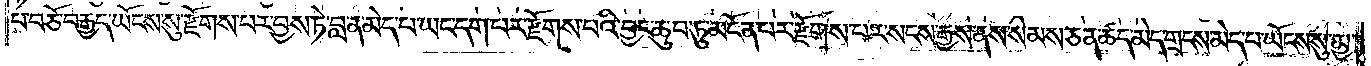པ་བཅོ་བརྒྱད་ཡོངས་སུ་རྫོགས་པར་བྱས་ཏེ་བླ་ན་མེད་པ་ཡང་དག་པར་རྫོགས་པའི་བྱང་ཆུབ་ཏུ་མངོན་པར་རྫོགས་པར་སངས་རྒྱས་ནས་སེམས་ཅན་ཚད་མེད་གྲངས་མེད་པ་ཡོངས་སུ་མྱ་
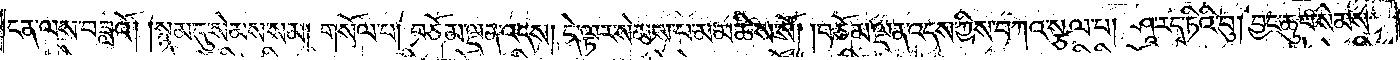ངན་ལས་བཟླའོ། །སྙམ་དུ་སེམས་སམ། གསོལ་པ། བཅོམ་ལྡན་འདས། དེ་ལྟར་སེམས་པ་མ་མཆིས་སོ། །བཅོམ་ལྡན་འདས་ཀྱིས་བཀའ་སྩལ་པ། ཤཱ་ར་དྭ་ཏིའི་བུ། བྱང་ཆུབ་སེམས་
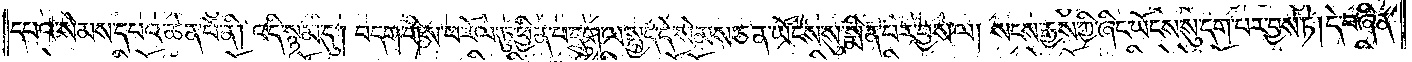དཔའ་སེམས་དཔའ་ཆེན་པོ་ནི། འདི་སྙམ་དུ། བདག་གིས་ཕ་རོལ་ཏུ་ཕྱིན་པ་དྲུག་ལ་སྤྱད་དེ་སེམས་ཅན་ཡོངས་སུ་སྨིན་པར་བྱས་ལ། སངས་རྒྱས་ཀྱི་ཞིང་ཡོངས་སུ་དག་པར་བྱས་ཏེ། དེ་བཞིན་
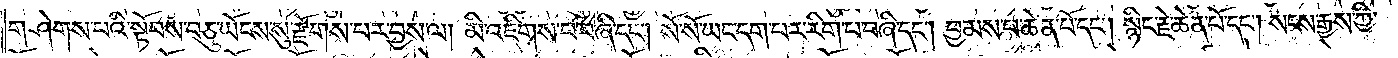གཤེགས་པའི་སྟོབས་བཅུ་ཡོངས་སུ་རྫོགས་པར་བྱས་ལ། མི་འཇིགས་པ་བཞི་དང༌། སོ་སོ་ཡང་དག་པར་རིག་པ་བཞི་དང༌། བྱམས་པ་ཆེན་པོ་དང༌། སྙིང་རྗེ་ཆེན་པོ་དང༌། སངས་རྒྱས་ཀྱི་
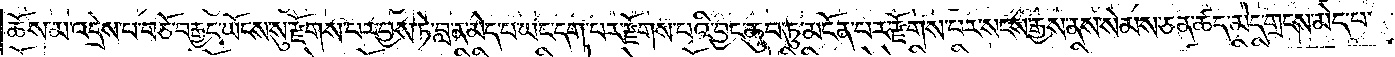ཆོས་མ་འདྲེས་པ་བཅོ་བརྒྱད་ཡོངས་སུ་རྫོགས་པར་བྱས་ཏེ་བླ་ན་མེད་པ་ཡང་དག་པར་རྫོགས་པའི་བྱང་ཆུབ་ཏུ་མངོན་པར་རྫོགས་པར་སངས་རྒྱས་ནས་སེམས་ཅན་ཚད་མེད་གྲངས་མེད་པ་
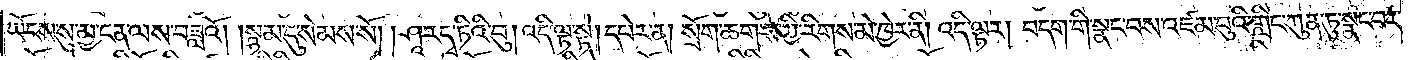ཡོངས་སུ་མྱ་ངན་ལས་བཟླའོ། །སྙམ་དུ་སེམས་སོ། །ཤཱ་རདྭ་ཏིའི་བུ། འདི་ལྟ་སྟེ། དཔེར་ན། སྲོག་ཆགས་ཀྱི་རིགས་མེ་ཁྱེར་ནི། འདི་ལྟར། བདག་གི་སྣང་བས་འཛམ་བུའི་གླིང་ཀུན་ཏུ་སྣང་བར་
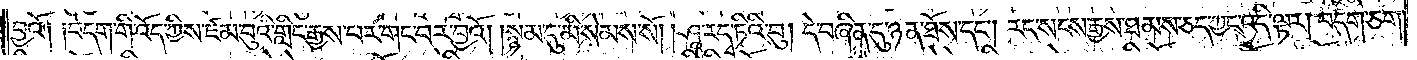བྱའོ༑ ༑བདག་གི་འོད་ཀྱིས་ཛམ་བུའི་གླིང་རྒྱས་པར་གང་བར་བྱའོ། །སྙམ་དུ་མི་སེམས་སོ། །ཤཱ་ར་དྭ་ཏིའི་བུ། དེ་བཞིན་དུ་ཉན་ཐོས་དང༌། རང་སངས་རྒྱས་ཐམས་ཅད་ཀྱང་འདི་ལྟར། བདག་ཅག་
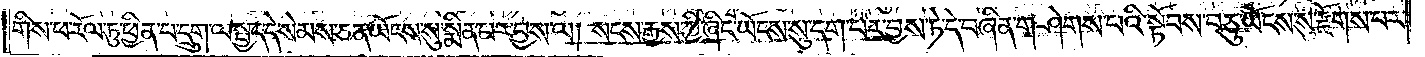གིས་ཕ་རོལ་ཏུ་ཕྱིན་པ་དྲུག་ལ་སྤྱད་དེ་སེམས་ཅན་ཡོངས་སུ་སྨིན་པར་བྱས་ལ། སངས་རྒྱས་ཀྱི་ཞིང་ཡོངས་སུ་དག་པར་བྱས་ཏེ་དེ་བཞིན་གཤེགས་པའི་སྟོབས་བཅུ་ཡོངས་སུ་རྫོགས་པར་
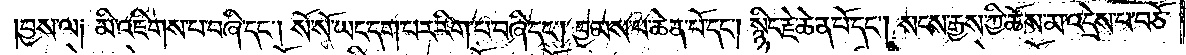བྱས་ལ། མི་འཇིགས་པ་བཞི་དང༌། སོ་སོ་ཡང་དག་པར་རིག་བ་བཞི་དང༌། བྱམས་པ་ཆེན་པོ་དང༌། སྙིང་རྗེ་ཆེན་པོ་དང༌། སངས་རྒྱས་ཀྱི་ཆོས་མ་འདྲེས་པ་བཅོ་
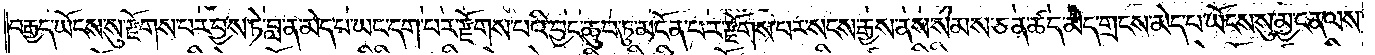བརྒྱད་ཡོངས་སུ་རྫོགས་པར་བྱས་ཏེ་བླ་ན་མེད་པ་ཡང་དག་པར་རྫོགས་པའི་བྱང་ཆུབ་ཏུ་མངོན་པར་རྫོགས་པར་སངས་རྒྱས་ནས་སེམས་ཅན་ཚད་མེད་གྲངས་མེད་པ་ཡོངས་སུ་མྱ་ངན་ལས་
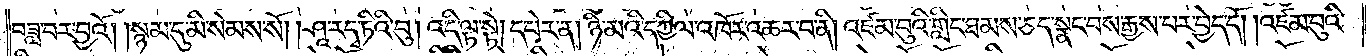བཟླ་བར་བྱའོ། །སྙམ་དུ་མི་སེམས་སོ། །ཤཱ་ར་དྭ་ཏིའི་བུ། འདི་ལྟ་སྟེ། དཔེར་ན། ཉི་མའི་དཀྱིལ་འཁོར་འཆར་བ་ནི། འཛམ་བུའི་གླིང་ཐམས་ཅད་སྣང་བས་རྒྱས་པར་བྱེད་དོ། །འཛམ་བུའི་
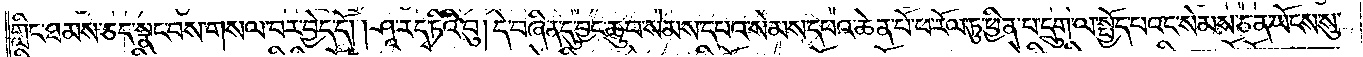གླིང་ཐམས་ཅད་སྣང་པས་གསལ་བར་བྱེད་དོ། །ཤཱ་རདྭ་ཏིའི་བུ། དེ་བཞིན་དུ་བྱང་ཆུབ་སེམས་དཔའ་སེམས་དཔའ་ཆེན་པོ་ཕ་རོལ་ཏུ་ཕྱིན་པ་དྲུག་ལ་སྤྱོད་པའང་སེམས་ཅན་ཡོངས་སུ་
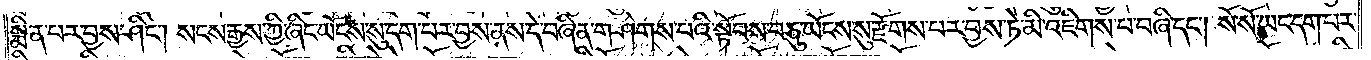སྨིན་པར་བྱས་ཤིང༌། སངས་རྒྱས་ཀྱི་ཞིང་ཡོངས་སུ་དག་པར་བྱས་ནས་དེ་བཞིན་གཤེགས་པའི་སྟོབས་བཅུ་ཡོངས་སུ་རྫོགས་པར་བྱས་ཏེ་མི་འཇིགས་པ་བཞི་དང༌། སོ་སོ་ཡང་དག་པར་
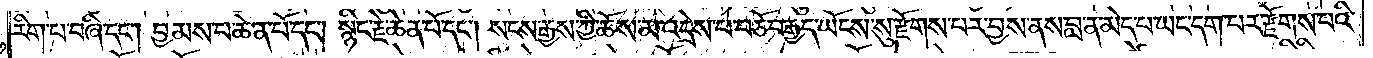རིག་པ་བཞི་དང༌། བྱམས་པ་ཆེན་པོ་དང༌། སྙིང་རྗེ་ཆེན་པོ་དང༌། སངས་རྒྱས་ཀྱི་ཆོས་མ་འདྲེས་པ་བཅོ་བརྒྱད་ཡོངས་སུ་རྫོགས་པར་བྱས་ནས་བླ་ན་མེད་པ་ཡང་དག་པར་རྫོགས་པའི་
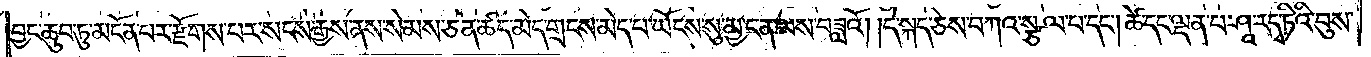བྱང་ཆུབ་ཏུ་མངོན་པར་རྫོགས་པར་སངས་རྒྱས་ནས་སེམས་ཅན་ཚད་མེད་གྲངས་མེད་པ་ཡོངས་སུ་མྱ་ངན་ལས་བཟླའོ། །དེ་སྐད་ཅེས་བཀའ་སྩལ་པ་དང༌། ཚེ་དང་ལྡན་པ་ཤཱ་ར་དྭ་ཏིའི་བུས་
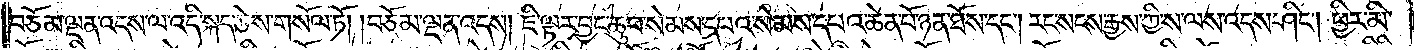བཅོམ་ལྡན་འདས་ལ་འདི་སྐད་ཅེས་གསོལ་ཏོ། །བཅོམ་ལྡན་འདས། ཇི་ལྟར་བྱང་ཆུབ་སེམས་དཔའ་སེམས་དཔའ་ཆེན་པོ་ཉན་ཐོས་དང༌། རང་སངས་རྒྱས་ཀྱི་ས་ལས་འདས་ཤིང༌། ཕྱིར་མི་
